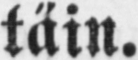täin.
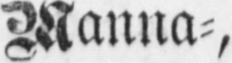Wanna-,
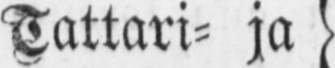Tattari- ja
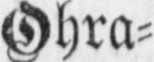Ohra-
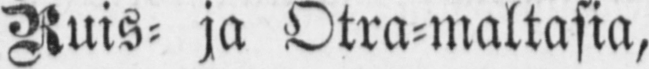Ruis- ja Otra-maltasia,
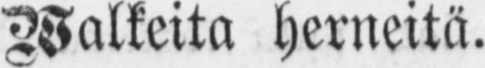Walkeita herneitä.
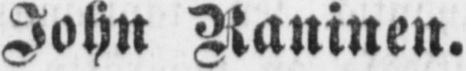John Raninen.
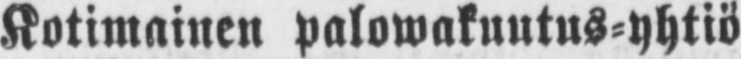Kotimainen palowakuutus-yhtiö
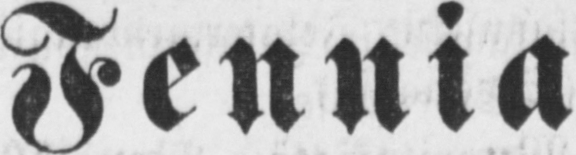Fennia
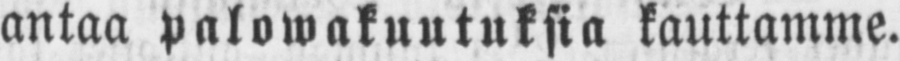antaa palowakuutuksia kauttamme.
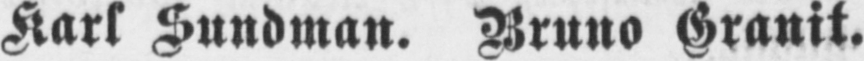Karl Sundman. Bruno Granit.
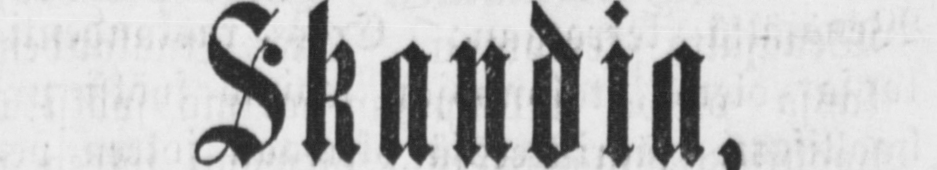Skandia,
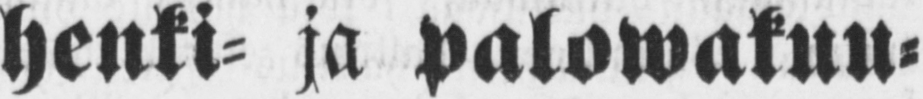henki- ja palowakuu-
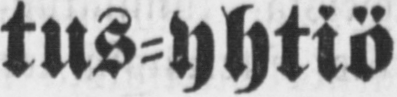tus-yhtiö
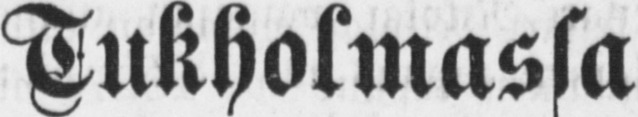Tukholmassa
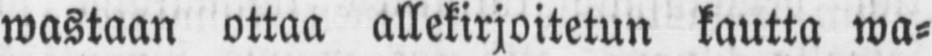wastaan ottaa allekirjoitetun kautta wa-
